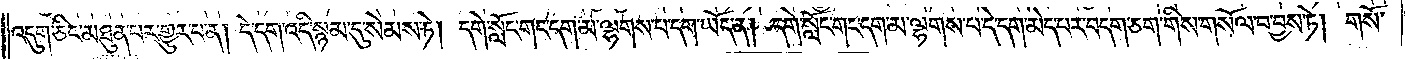འདུག་ཅིང་མཐུན་པར་གྱུར་པ་ན། དེ་དག་འདི་སྙམ་དུ་སེམས་ཏེ། དགེ་སློང་གང་དག་མ་ལྷགས་པ་དག་ཡོད་ན། དགེ་སློང་གང་དག་མ་ལྷགས་པ་དེ་དག་མེད་པར་བདག་ཅག་གིས་གསོལ་བ་བྱས་ཏེ། གསོ་
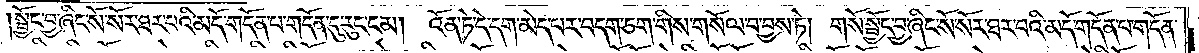སྦྱོང་བྱ་ཞིང་སོ་སོར་ཐར་པའི་མདོ་གདོན་པ་གདོན་དུ་རུང་ངམ། འོན་ཏེ་དེ་དག་མེད་པར་བདག་ཅག་གིས་གསོལ་བ་བྱས་ཏེ། གསོ་སྦྱོང་བྱ་ཞིང་སོ་སོར་ཐང་པའི་མདོ་གདོན་པ་གདོན་
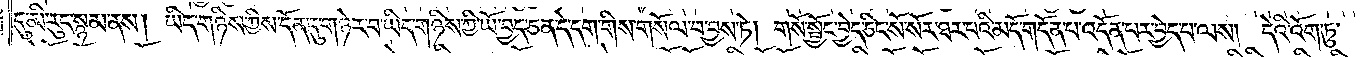དུ་མི་རུང་སྙམ་ནས། ཡིད་གཉིས་ཀྱིས་དོན་དུ་གཉེར་བ་ཡིད་གཉིས་ཀྱི་ཡོ་བྱད་ཅན་དེ་དག་གིས་གསོལ་བ་བྱས་ཏེ། གསོ་སྦྱོང་བྱེད་ཅིང་སོ་སོར་ཐར་པའི་མདོ་གདོན་པ་འདོན་པར་བྱེད་པ་ལས། དེའི་འོག་ཏུ་
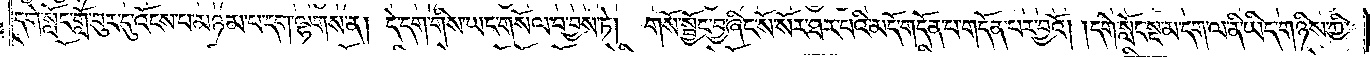དགེ་སློང་གློ་བུར་དུ་འོངས་པ་མཉམ་པ་དག་ལྷགས་ན། དེ་དག་གིས་ཡང་གསོལ་བ་བྱས་ཏེ། གསོ་སྦྱོང་བྱ་ཞིང་སོ་སོར་ཐར་པའི་མདོ་གདོན་པ་གདོན་པར་བྱའོ། །དགེ་སློང་སྔ་མ་དག་ལ་ནི་ཡིད་གཉིས་ཀྱི་
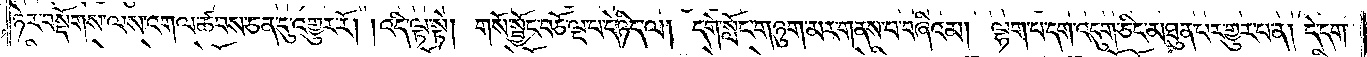ཉེར་བསྡོགས་ལས་འགལ་ཚབས་ཅན་དུ་འགྱུར་རོ། །འདི་ལྟ་སྟེ། གསོ་སྦྱོང་བཅོ་ལྔ་པ་དེ་ཉིད་ལ། དགེ་སློང་གཉུག་མར་གནས་པ་བཞིའམ། ལྷག་པ་དག་འདུག་ཅིང་མཐུན་པར་གྱུར་པ་ན། དེ་དག་
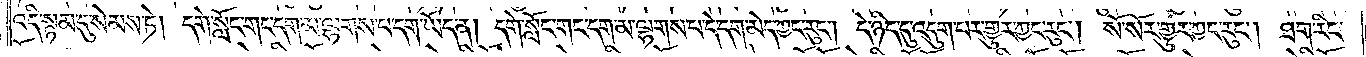འདི་སྙམ་དུ་སེམས་ཏེ། དགེ་སློང་གང་དག་མ་ལྷགས་པ་དག་ཡོད་ན། དགེ་སློང་གང་དག་མ་ལྷགས་པ་དེ་དག་མེད་ཀྱང་རུང༌། དེ་ཉིད་དུ་འདུག་པར་གྱུར་ཀྱང་རུང༌། སོ་སོར་གྱུར་ཀྱང་རུང༌། ཐག་རིང་
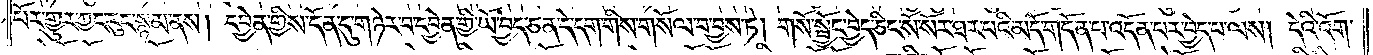པོར་གྱུར་ཀྱང་རུང་སྙམ་ནས། དབྱེན་གྱིས་དོན་དུ་གཉེར་བ་དབྱེན་གྱི་ཡོ་བྱད་ཅན་དེ་དག་གིས་གསོལ་བ་བྱས་ཏེ། གསོ་སྦྱོང་བྱེད་ཅིང་སོ་སོར་ཐར་བའི་མདོ་གདོན་པ་འདོན་པར་བྱེད་པ་ལས། དེའི་འོག་
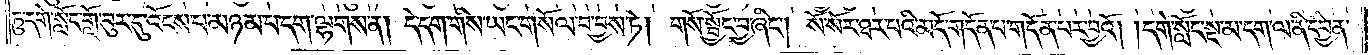ཏུ་དགེ་སློང་གློ་བུར་དུ་འོངས་པ་མཉམ་པ་དག་ལྷགས་ན། དེ་དག་གིས་ཡང་གསོལ་བ་བྱས་ཏེ། གསོ་སྦྱོང་བྱ་ཞིང༌། སོ་སོར་ཐར་པའི་མདོ་གདོན་པ་གདོན་པར་བྱའོ། །དགེ་སློང་སྔ་མ་དག་ལ་ནི་དབྱེན་
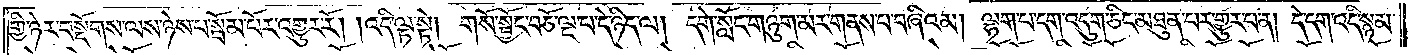གྱི་ཉེར་བསྡོགས་ལས་ཉེས་པ་སྦོམ་པོར་འགྱུར་རོ། །འདི་ལྟ་སྟེ། གསོ་སྦྱོང་བཅོ་ལྔ་པ་དེ་ཉིད་ལ། དགེ་སློང་གཉུག་མར་གནས་པ་བཞིའམ། ལྷག་པ་དག་འདུག་ཅིང་མཐུན་པར་གྱུར་པ་ན། དེ་དག་འདི་སྙམ་
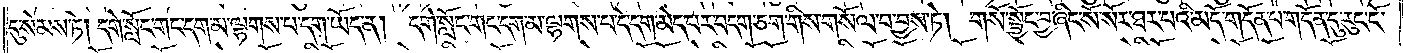དུ་སེམས་ཏེ། དགེ་སློང་གང་དག་མ་ལྷགས་པ་དག་ཡོད་ན། དགེ་སློང་གང་དག་མ་ལྷགས་པ་དེ་དག་མེད་པར་བདག་ཅག་གིས་གསོལ་བ་བྱས་ཏེ། གསོ་སྦྱོང་བྱ་ཞིང་སོ་སོར་ཐར་པའི་མདོ་གདོན་པ་གདོན་དུ་རུང་ངོ་
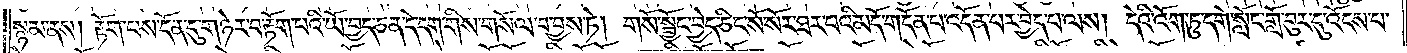སྙམ་ནས། རྟོག་པས་དོན་དུ་གཉེར་བ་རྟོག་པའི་ཡོ་བྱད་ཅན་དེ་དག་གིས་གསོལ་བ་བྱས་ཏེ། གསོ་སྦྱོང་བྱེད་ཅིང་སོ་སོར་ཐར་བའི་མདོ་གདོན་པ་འདོན་པར་བྱེད་པ་ལས། དེའི་འོག་ཏུ་དགེ་སློང་གློ་བུར་དུ་འོངས་པ་
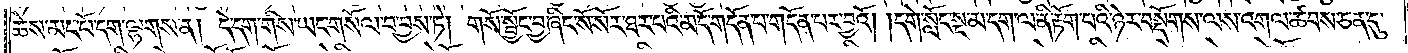ཆེས་མང་པོ་དག་ལྷགས་ན། དེ་དག་གིས་ཡང་གསོལ་བ་བྱས་ཏེ། གསོ་སྦྱོང་བྱ་ཞིང་སོ་སོར་ཐར་པའི་མདོ་གདོན་པ་གདོན་པར་བྱའོ། །དགེ་སློང་སྔ་མ་དག་ལ་ནི་རྟོག་པའི་ཉེར་བསྡོགས་ལས་འགལ་ཚབས་ཅན་དུ་
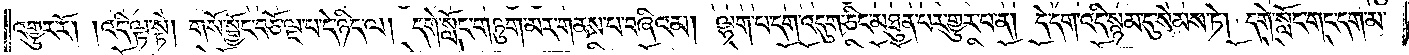འགྱུར་རོ། །འདི་ལྟ་སྟེ། གསོ་སྦྱོང་བཅོ་ལྔ་པ་དེ་ཉིད་ལ། དགེ་སློང་གཉུག་མར་གནས་པ་བཞིའམ། ལྷག་པ་དག་འདུག་ཅིང་མཐུན་པར་གྱུར་པ་ན། དེ་དག་འདི་སྙམ་དུ་སེམས་ཏེ། དགེ་སློང་གང་དག་མ་
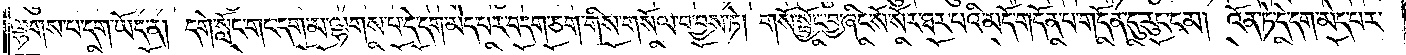ལྷགས་པ་དག་ཡོད་ན། དགེ་སློང་གང་དག་མ་ལྷགས་པ་དེ་དག་མེད་པར་བདག་ཅག་གིས་གསོལ་བ་བྱས་ཏེ། གསོ་སྦྱོང་བྱ་ཞིང་སོ་སོར་ཐར་པའི་མདོ་གདོན་པ་གདོན་དུ་རུང་ངམ། འོན་ཏེ་དེ་དག་མེད་པར་
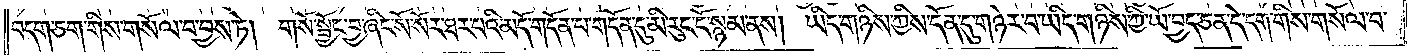བདག་ཅག་གིས་གསོལ་བ་བྱས་ཏེ། གསོ་སྦྱོང་བྱ་ཞིང་སོ་སོར་ཐར་པའི་མདོ་གདོན་པ་གདོན་དུ་མི་རུང་ངོ་སྙམ་ནས། ཡིད་གཉིས་ཀྱིས་དོན་དུ་གཉེར་བ་ཡིད་གཉིས་ཀྱི་ཡོ་བྱད་ཅན་དེ་དག་གིས་གསོལ་བ་
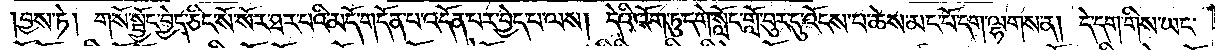བྱས་ཏེ། གསོ་སྦྱོང་བྱེད་ཅིང་སོ་སོར་ཐར་པའི་མདོ་གདོན་པ་འདོན་པར་བྱེད་པ་ལས། དེའི་འོག་ཏུ་དགེ་སློང་གློ་བུར་དུ་འོངས་པ་ཆེས་མང་པོ་དག་ལྷགས་ན། དེ་དག་གིས་ཡང་
